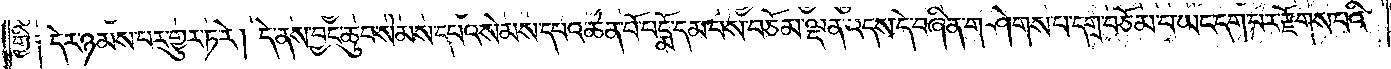གྱི༑ དེར་ཉམས་པར་གྱུར་ཏ་རེ། དེ་ནས་བྱང་ཆུབ་སེམས་དཔའ་སེམས་དཔའ་ཆེན་པོ་པདྨོ་དམ་པས་བཅོམ་ལྡན་འདས་དེ་བཞིན་གཤེགས་པ་དགྲ་བཅོམ་པ་ཡང་དག་པར་རྫོགས་པའི་
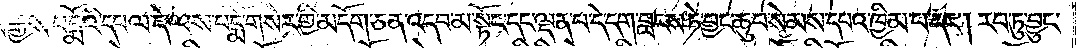རྒྱས་པདྨོའི་དཔལ་དེ་ལས་པདྨོ་གསེར་གྱི་མདོག་ཅན་འདབ་མ་སྟོང་དང་ལྡན་པ་དེ་དག་བླངས་ཏེ་བྱང་ཆུབ་སེམས་དཔའ་ཁྱིམ་པ་དང༌། རབ་ཏུ་བྱུང་
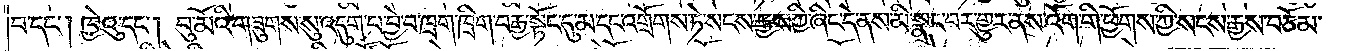བ་དང༌། ཁྱེའུ་དང༌། བུ་མོའི་གཟུགས་སུ་འདུག་པ་བྱེ་བ་ཁྲག་ཁྲིག་བརྒྱ་སྟོང་དུ་མ་དང་འགྲོགས་ཏེ་སངས་རྒྱས་ཀྱི་ཞིང་དེ་ནས་མི་སྣང་བར་གྱུར་ནས་འོག་གི་ཕྱོགས་ཀྱི་སངས་རྒྱས་བཅོམ་
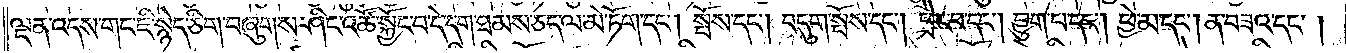ལྡན་འདས་གང་ཇི་སྙེད་ཅིག་བཞུགས་ཤིང་འཚོ་སྐྱོང་བ་དེ་དག་ཐམས་ཅད་ལ་མེ་ཏོག་དང༌། སྤོས་དང༌། བདུག་སྤོས་དང༌། ཕྲེང་པ་དང༌། བྱུག་པ་དང༌། ཕྱེ་མ་དང༌། ན་བཟའ་དང༌། །
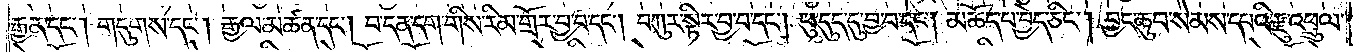རྒྱན་དང༌། གདུགས་དང༌། རྒྱལ་མཚན་དང༌། བ་དན་དག་གིས་རིམ་གྲོར་བྱ་བ་དང༌། བཀུར་སྟིར་བྱ་བ་དང༌། ཕུ་དུད་དུ་བྱ་བ་དང༌། མཆོད་པ་བྱེད་ཅིང༌། བྱང་ཆུབ་སེམས་དཔའི་རྫུ་འཕྲུལ་
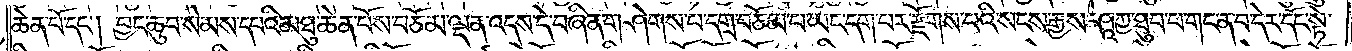ཆེན་པོ་དང༌། བྱང་ཆུབ་སེམས་དཔའི་མཐུ་ཆེན་པོས་བཅོམ་ལྡན་འདས་དེ་བཞིན་གཤེགས་པ་དགྲ་བཅོམ་པ་ཡང་དག་པར་རྫོགས་པའི་སངས་རྒྱས་ཤཱཀྱ་ཐུབ་པ་གང་ན་བ་དེར་དོང་སྟེ་
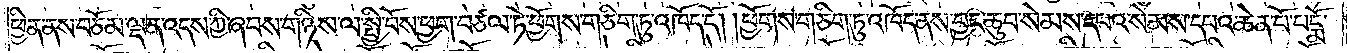ཕྱིན་ནས་བཅོམ་ལྡན་འདས་ཀྱི་ཞབས་གཉིས་ལ་སྤྱི་བོས་ཕྱག་བཙལ་ཏེ་ཕྱོགས་གཅིག་ཏུ་འཁོད་དོ། །ཕྱོགས་གཅིག་ཏུ་འཁོད་ནས་བྱང་ཆུབ་སེམས་དཔའ་སེམས་དཔའ་ཆེན་པོ་པདྨོ་
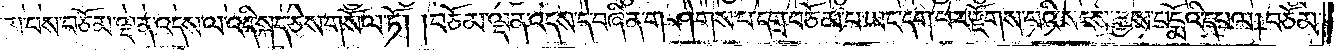དམ་པས་བཅོམ་ལྡན་འདས་ལ་འདི་སྐད་ཅེས་གསོལ་ཏོ། །བཅོམ་ལྡན་འདས་དེ་བཞིན་གཤེགས་པ་དགྲ་བཅོམ་པ་ཡང་དག་པར་རྫོགས་པའི་སངས་རྒྱས་པདྨོའི་དཔལ། བཅོམ་
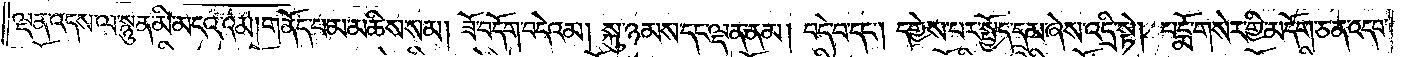ལྡན་འདས་ལ་སྙུན་མི་མངའ་འམ། གནོད་པ་མ་མཆིས་སམ། ཟོ་བདོག་བདེའམ། སྐུ་ཉམས་དང་ལྡན་ནམ། བདེ་བ་དང༌། དགྱེས་པར་སྤྱོད་དམ་ཞེས་འདྲི་སྟེ། པདྨོ་གསེར་གྱི་མདོག་ཅན་འདབ་
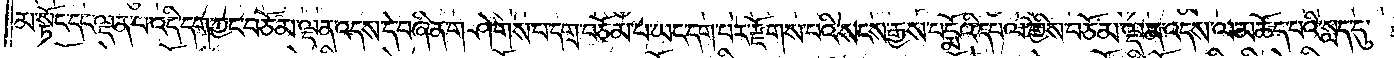མ་སྟོང་དང་ལྡན་པ་འདི་དག་ཀྱང་བཅོམ་ལྡན་འདས་དེ་བཞིན་གཤེགས་པ་དགྲ་བཅོམ་པ་ཡང་དག་པར་རྫོགས་པའི་སངས་རྒྱས་པདྨོའི་དཔལ་གྱིས་བཅོམ་ལྡན་འདས་ལ་མཆོད་པའི་སླད་དུ་
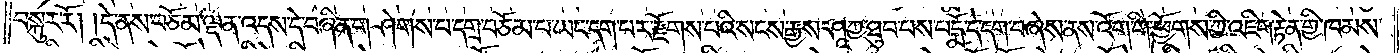བསྐུར་རོ། །དེ་ནས་བཅོམ་ལྡན་འདས་དེ་བཞིན་གཤེགས་པ་དགྲ་བཅོམ་པ་ཡང་དག་པར་རྫོགས་པའི་སངས་རྒྱས་ཤཱཀྱ་ཐུབ་པས་པདྨོ་དེ་དག་བཞེས་ནས་འོག་གི་ཕྱོགས་ཀྱི་འཇིག་རྟེན་གྱི་ཁམས་
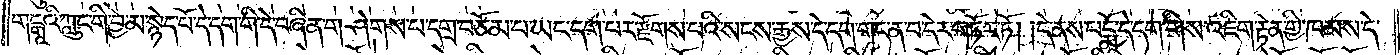གངྒཱའི་ཀླུང་གི་བྱེ་མ་སྙེད་པོ་དེ་དག་གི་དེ་བཞིན་གཤེགས་པ་དགྲ་བཅོམ་པ་ཡང་དག་པར་རྫོགས་པའི་སངས་རྒྱས་དེ་དག་གང་ན་བ་དེར་གཏོར་ཏོ། །དེ་ནས་པདྨོ་དེ་དག་གིས་འཇིག་རྟེན་གྱི་ཁམས་དེ་
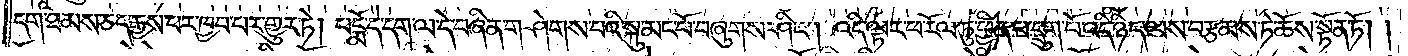དག་ཐམས་ཅད་རྒྱས་པར་ཁྱབ་པར་གྱུར་ཏེ། པདྨོ་དེ་དག་ལ་དེ་བཞིན་གཤེགས་པའི་སྐུ་མང་པོ་བཞུགས་ཤིང༌། འདི་ལྟར་ཕ་རོལ་ཏུ་ཕྱིན་པ་དྲུག་པོ་འདི་ཉིད་ལས་བརྩམས་ཏེ་ཆོས་སྟོན་ཏོ། །
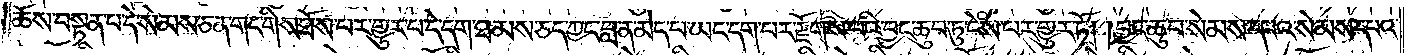ཆོས་བསྟན་པ་དེ་སེམས་ཅན་གང་གིས་ཐོས་པར་གྱུར་པ་དེ་དག་ཐམས་ཅད་ཀྱང་བླ་ན་མེད་པ་ཡང་དག་པར་རྫོགས་པའི་བྱང་ཆུབ་ཏུ་ངེས་པར་གྱུར་ཏོ། །བྱང་ཆུབ་སེམས་དཔའ་སེམས་དཔའ་
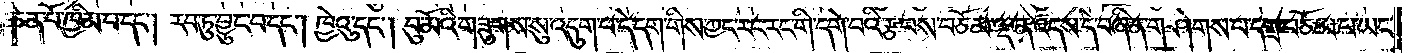ཆེན་པོ་ཁྱིམ་པ་དང༌། རབ་ཏུ་བྱུང་བ་དང༌། ཁྱེའུ་དང༌། བུ་མོའི་གཟུགས་སུ་འདུག་པ་དེ་དག་གིས་ཀྱང་རང་རང་གི་དགེ་བའི་རྩ་བས་བཅོམ་ལྡན་འདས་དེ་བཞིན་གཤེགས་པ་དགྲ་བཅོམ་པ་ཡང་
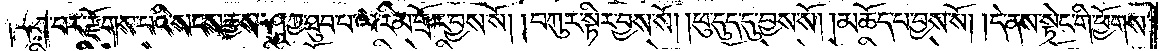དག་པར་རྫོགས་པའི་སངས་རྒྱས་ཤཱཀྱ་ཐུབ་པ་ལ་རིམ་གྲོར་བྱས་སོ། །བཀུར་སྟིར་བྱས་སོ། །ཕུ་དུད་དུ་བྱས་སོ། །མཆོད་པ་བྱས་སོ། །དེ་ནས་སྟེང་གི་ཕྱོགས་
